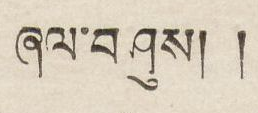ཞལ་བཤུས། །
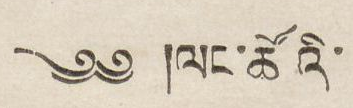༄༅ །ལང་ཚོའི་
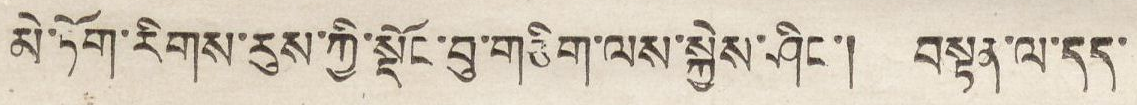མེ་ཏོག་རིགས་རུས་ཀྱི་སྡོང་བུ་གཅིག་ལས་སྐྱེས་ཤིང་། བསྟན་ལ་དད་
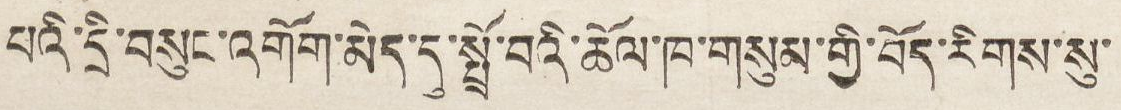པའི་དྲི་བསུང་འགོག་མེད་དུ་སྤྲོ་བའི་ཆོལ་ཁ་གསུམ་གྱི་བོད་རིགས་སུ་
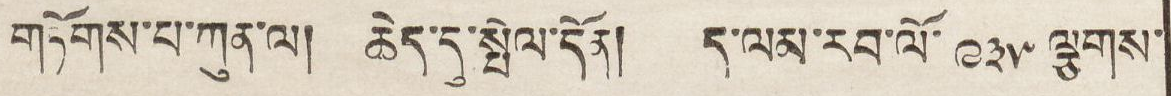གཏོགས་པ་ཀུན་ལ། ཆེད་དུ་སྤེལ་དོན། ད་ལམ་རབ་ལོ་ ༩༣༥ ལྕགས་
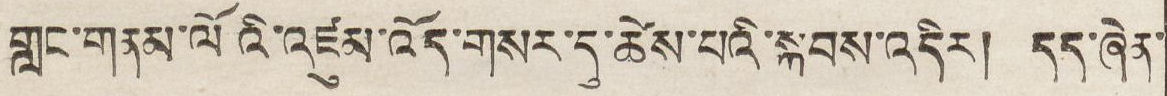གླང་གནམ་ལོའི་འཛུམ་འོད་གསར་དུ་ཚེས་པའི་སྐབས་འདིར། དད་ཞེན་
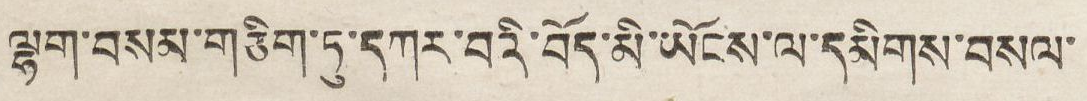ལྷག་བསམ་གཅིག་ཏུ་དཀར་བའི་བོད་མི་ཡོངས་ལ་དམིགས་བསལ་
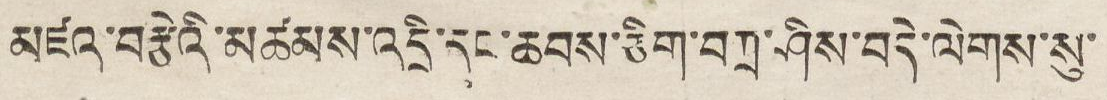མཛའ་བརྩེའི་མཚམས་འདྲི་དང་ཆབས་ཅིག་བཀྲ་ཤིས་བདེ་ལེགས་སུ་
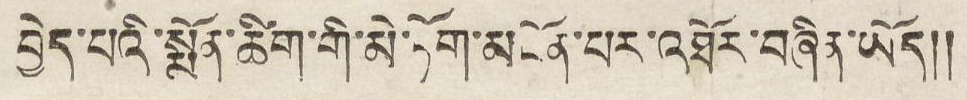བྱེད་པའི་སྨོན་ཚིག་གི་མེ་ཏོག་མངོན་པར་འཐོར་བཞིན་ཡོད།།
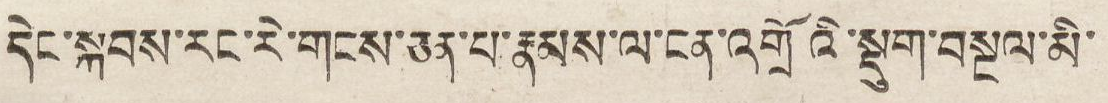དེང་སྐབས་རང་རེ་གངས་ཅན་པ་རྣམས་ལ་ངན་འགྲོའི་སྡུག་བསྔལ་མི་
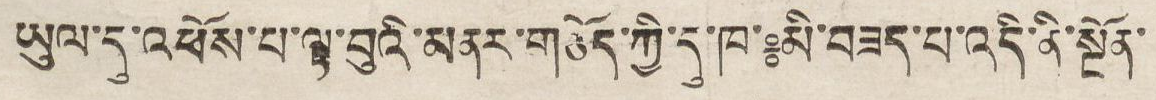ཡུལ་འཕོས་པ་ལྟ་བུའི་མནར་གཅོད་ཀྱི་དུ་ཁ་༔མི་བཟད་པ་འདི་ནི་སྔོན་
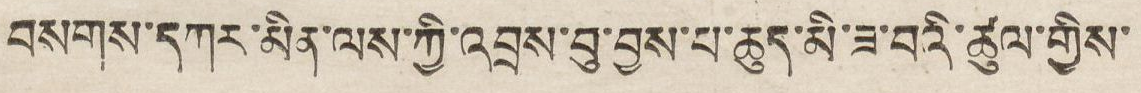བསགས་དཀར་མིན་ལས་ཀྱི་འབྲས་བུ་བྱས་པ་ཆུད་མི་ཟ་བའི་ཚུལ་གྱིས་
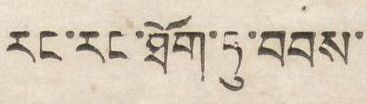རང་རང་ཐོག་ཏུ་བབས་
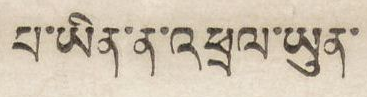པ་ཡིན་ན་འཕྲལ་ཡུན་
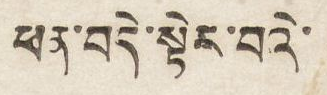ཕན་བདེ་སྟེར་བའེ་
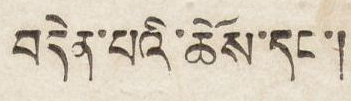བདེན་པའི་ཆོས་དང་།
